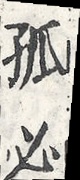孤必
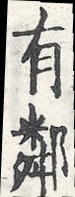有鄰
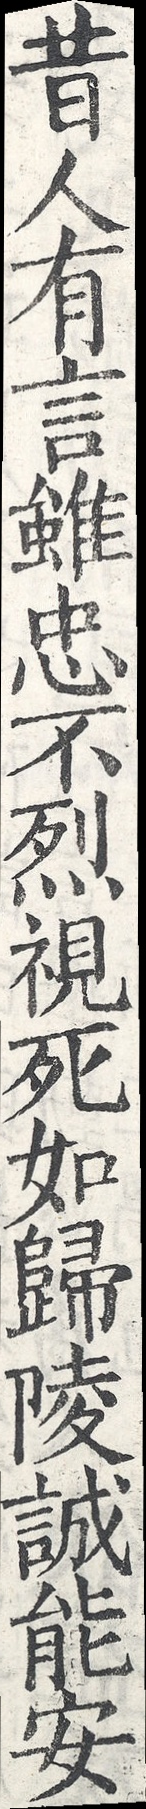昔人有言雖忠不烈視死如歸陵誠能安
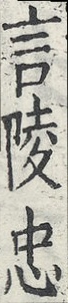言陵忠
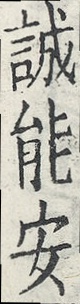誠能安
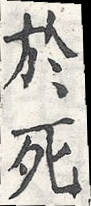於死
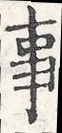事
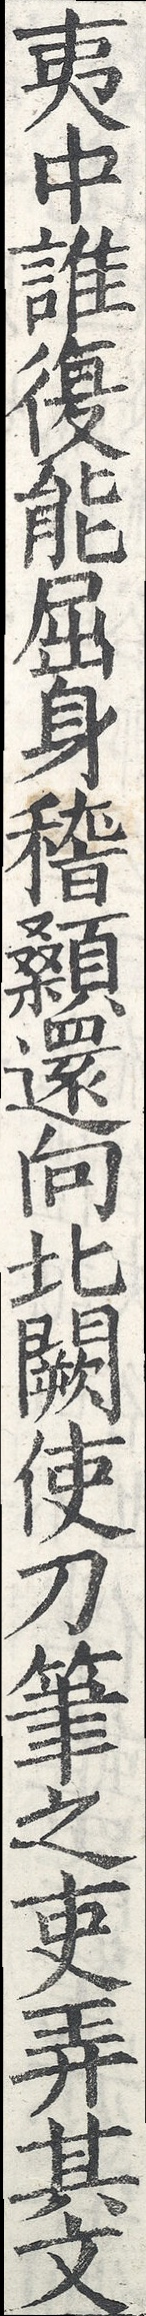夷中誰復能屈身稽顙還向北闕使刀筆之吏弄其文
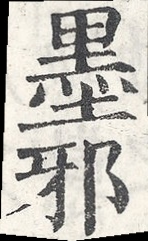墨邪
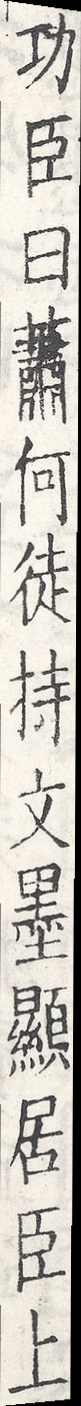功臣曰蕭何徒持文墨顯居臣上
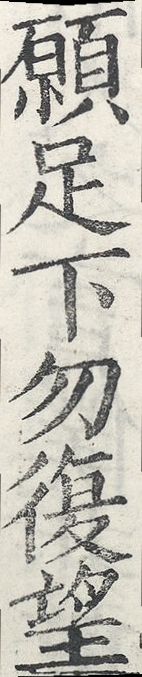願足下勿復望
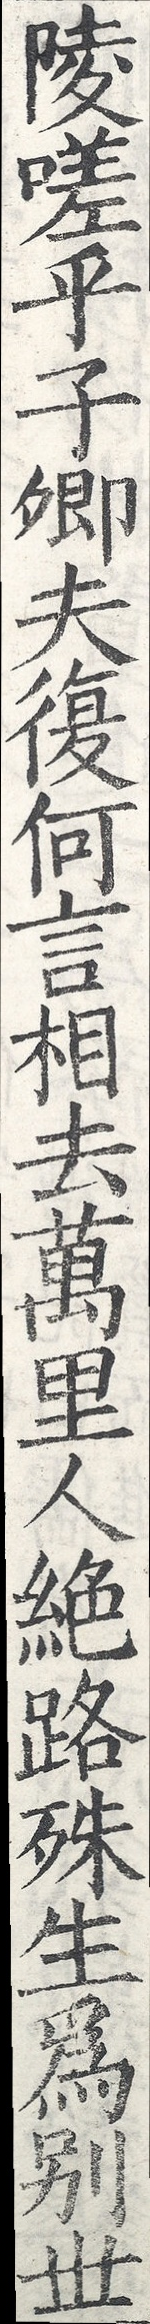陵嗟乎子卿夫復何言相去萬里人絕路殊生為別世
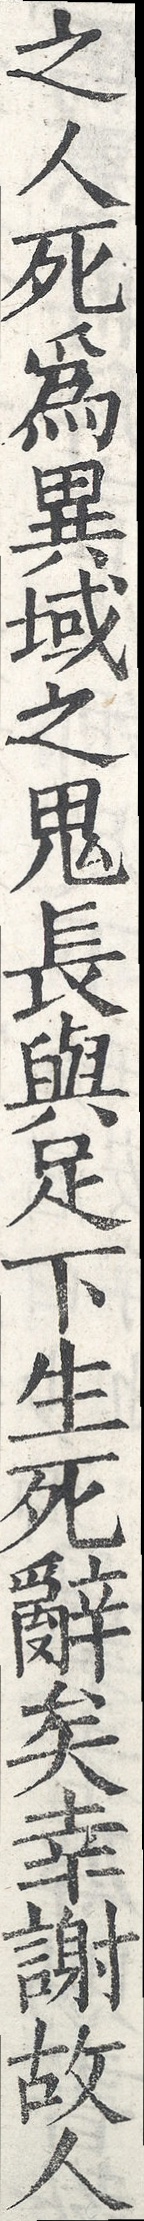之人死為異域之鬼長與足下生死辭矣幸謝故人
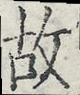故
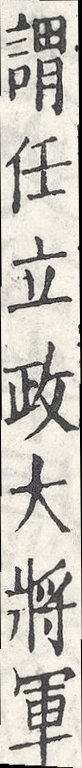謂任立政大將軍
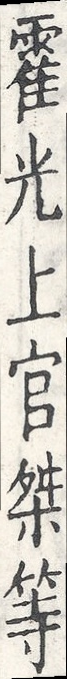霍光上官桀等
